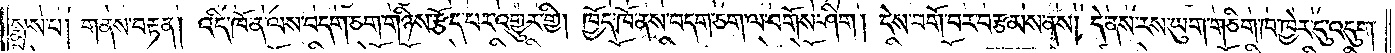སྨྲས་པ། གནས་བརྟན། འདི་ཁོ་ན་ལས་བདག་ཅག་གཉིས་རྩོད་པར་འགྱུར་གྱི། ཁྱོད་ཁོ་ནས་བདག་ཅག་ལ་བགོས་ཤིག །དེས་བགོ་བར་བརྩམས་ནས། དེ་ནས་རས་ཡུག་གཅིག་ཁ་ཁྱེར་དུ་འདུག་
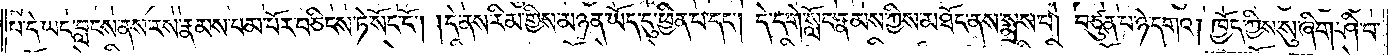པ་དེ་ཡང་བླངས་ནས་རས་རྣམས་བམ་པོར་བཅིངས་ཏེ་སོང་ངོ༌། །དེ་ནས་རིམ་གྱིས་མཉན་ཡོད་དུ་ཕྱིན་པ་དང༌། དེ་དགེ་སློང་རྣམས་ཀྱིས་མཐོང་ནས་སྨྲས་པ། བཙུན་པ་ཉེ་དགའ། ཁྱོད་ཀྱིས་སུ་ཞིག་ཤི་བ་
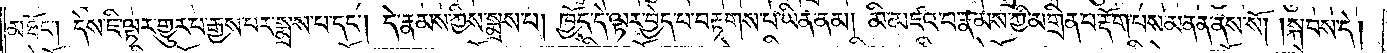མཐོང༌། དེས་ཇི་ལྟར་གྱུར་བ་རྒྱས་པར་སྨྲས་པ་དང༌། དེ་རྣམས་ཀྱིས་སྨྲས་པ། ཁྱོད་དེ་ལྟར་བྱེད་པ་བརྟགས་པ་ཡིན་ནམ། མི་མཛའ་བ་རྣམས་ཀྱི་མགྲིན་པ་རྡོག་པས་མནན་ནས་སོ། །སྐབས་དེ།
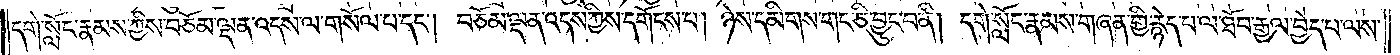དགེ་སློང་རྣམས་ཀྱིས་བཅོམ་ལྡན་འདས་ལ་གསོལ་པ་དང༌། བཅོམ་ལྡན་འདས་ཀྱིས་དགོངས་པ། ཉེས་དམིགས་གང་ཅི་བྱུང་བ་ནི། དགེ་སློང་རྣམས་གཞན་གྱི་རྙེད་པ་ལ་ཐོབ་རྒྱལ་བྱེད་པ་ལས་
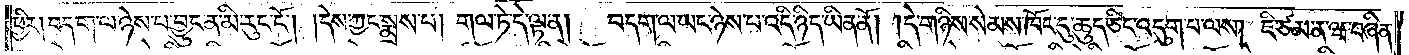ཕྱིར། བདག་ལ་ཉེས་པ་བྱུང་ན་མི་རུང་ངོ༌། །དེས་ཀྱང་སྨྲས་པ། གལ་ཏེ་དེ་ལྟ་ན།  བདག་ལ་ཡང་ཉེས་པ་འདི་ཉིད་ཡིན་ནོ། །དེ་གཉིས་སེམས་ཁོང་དུ་ཆུད་ཅིང་འདུག་པ་ལས། ཇི་ཙམ་ན་ཝ་བཞིན་
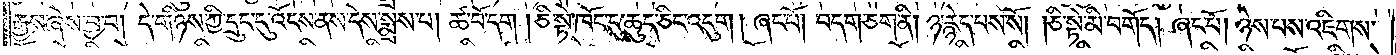རྒྱས་ཞེས་བྱ་བ། དེ་གཉིས་ཀྱི་དྲུང་དུ་འོངས་ནས་དེས་སྨྲས་པ། ཚ་བོ་དག །ཅི་སྟེ་ཁོང་དུ་ཆུད་ཅིང་འདུག །ཞང་པོ། བདག་ཅག་ནི། ཉ་རྙེད་པས་སོ། །ཅི་སྟེ་མི་བགོད། ཞང་པོ། ཉེས་པས་འཇིགས་
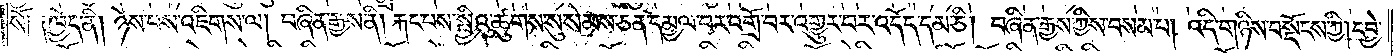སོ། །ཁྱོད་ནི། ཉེས་པས་འཇིགས་ལ། བཞིན་རྒྱས་ནི། རྐང་པས་སྤྱིའུ་ཚུགས་སུ་སེམས་ཅན་དམྱལ་བར་འགྲོ་བར་འགྱུར་བར་འདོད་དམ་ཅི། བཞིན་རྒྱས་ཀྱིས་བསམས་པ། འདི་གཉིས་བསྡོངས་ཀྱི། དབྱེ་
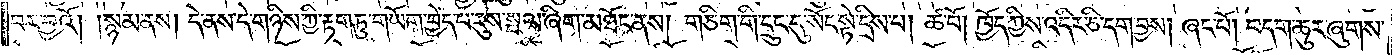བར་བྱའོ། །སྙམ་ནས། དེ་ནས་དེ་གཉིས་ཀྱི་རྟག་ཏུ་གཡོག་བྱེད་པ་རུས་སྦལ་ཞིག་མཐོང་ནས། གཅིག་གི་དྲུང་དུ་སོང་སྟེ་དྲིས་པ། ཚ་བོ། ཁྱོད་ཀྱིས་འདིར་ཅི་དག་བྱས། ཞང་པོ། བདག་ཆུར་ཞུགས་
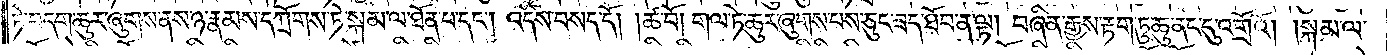ཏེ་བདག་ཆུར་ཞུགས་ནས་ཉ་རྣམས་དཀྲོགས་ཏེ་སྐམ་ལ་ཐོན་པ་དང༌། འདིས་བསད་དོ། །ཚ་བོ། གལ་ཏེ་ཆུར་ཞུགས་པས་ཅུང་ཟད་ཐོབ་ན་ལྟ། བཞིན་རྒྱས་རྟག་ཏུ་ཆུ་ནང་དུ་འགྲོའོ། །སྐམ་ལ་
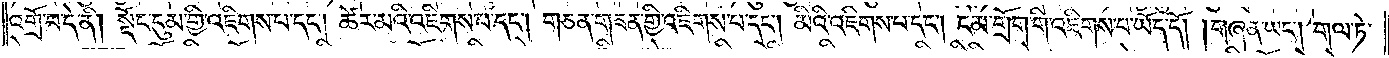འགྲོ་བ་དེ་ནི། སྡོང་དུམ་གྱི་འཇིགས་པ་དང༌། ཚེར་མའི་འཇིགས་པ་དང༌། གཅན་གཟན་གྱི་འཇིགས་པ་དང༌། མིའི་འཇིགས་པ་དང༌། ངམ་གྲོག་གི་འཇིགས་པ་ཡོད་དོ། །གཞན་ཡང༌། གལ་ཏེ་
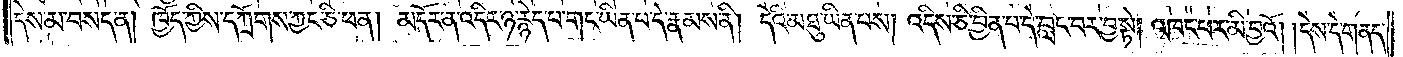དེས་མ་བསད་ན། ཁྱོད་ཀྱིས་དཀྲོགས་ཀྱང་ཅི་ཕན། མདོར་ན་འདིར་ཉ་རྙེད་པ་གང་ཡིན་པ་དེ་རྣམས་ནི། དེའི་མཐུ་ཡིན་པས། འདིས་ཅི་བྱིན་པ་དེ་བླང་བར་བྱ་སྟེ། འཁང་པར་མི་བྱའོ། །དེས་དེ་གནད་
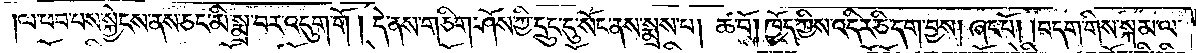ལ་ཕབ་པས་སྐྱེངས་ནས་ཅང་མི་སྨྲ་བར་འདུག་གོ །དེ་ནས་གཅིག་ཤོས་ཀྱི་དྲུང་དུ་སོང་ནས་སྨྲས་པ། ཚ་བོ། ཁྱོད་ཀྱིས་འདིར་ཅི་དག་བྱས། ཞང་པོ། བདག་གིས་སྐམ་ལ་
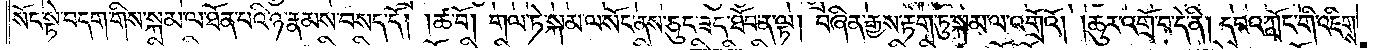སོང་སྟེ་བདག་གིས་སྐམ་ལ་ཐོན་པའི་ཉ་རྣམས་བསད་དོ། །ཚ་བོ། གལ་ཏེ་སྐམ་ལ་སོང་ནས་ཅུང་ཟད་ཐོབ་ན་ལྟ། བཞིན་རྒྱས་རྟག་ཏུ་སྐམ་ལ་འགྲོའོ། །ཆུར་འགྲོ་བ་དེ་ནི། དབའ་ཀློང་གི་འཇིགས་
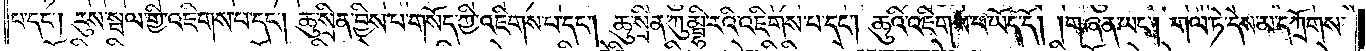པ་དང༌། རུས་སྦལ་གྱི་འཇིགས་པ་དང༌། ཆུ་སྲིན་བྱིས་པ་གསོད་ཀྱི་འཇིགས་པ་དང༌། ཆུ་སྲིན་ཀུམྦྷི་རའི་འཇིགས་པ་དང༌། ཆུའི་འཇིགས་པ་ཡོད་དོ། །གཞན་ཡང༌། གལ་ཏེ་དེས་མ་དཀྲོགས་
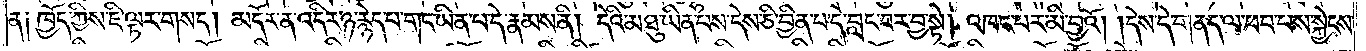ན༑ ཁྱོད་ཀྱིས་ཇི་ལྟར་གསད། མདོར་ན་འདིར་ཉ་རྙེད་པ་གང་ཡིན་པ་དེ་རྣམས་ནི། དེའི་མཐུ་ཡིན་པས་དེས་ཅི་བྱིན་པ་དེ་བླང་བར་བྱ་སྟེ། འཁང་པར་མི་བྱའོ། །དེས་དེ་གནད་ལ་ཕབ་པས་སྐྱེངས་
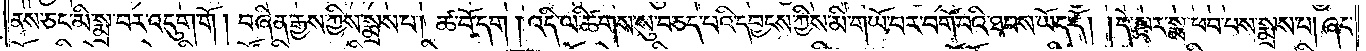ནས་ཅང་མི་སྨྲ་བར་འདུག་གོ །བཞིན་རྒྱས་ཀྱིས་སྨྲས་པ། ཚ་བོ་དག །འདི་ལ་ཚིགས་སུ་བཅད་པའི་དབྱངས་ཀྱིས་མི་གཡོ་བར་བགོ་བའི་ཐབས་ཡོད་དོ། །དེ་སྔར་སྨ་ཕབ་པས་སྨྲས་པ། ཞང་
